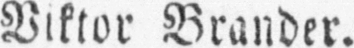Viktor Brander.
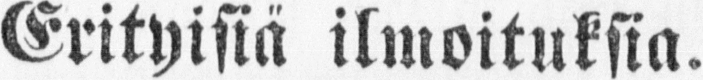Erityisiä ilmoituksia.
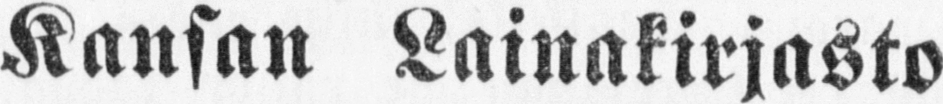Kansan Lainakirjasto
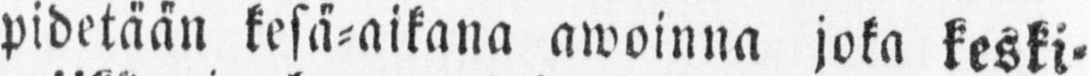pidetään kesä-aikana awoinna joka keski-
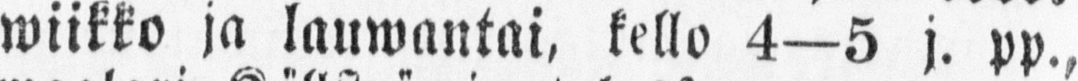wiikko ja lauwantai, kello 4—5 j. pp.,
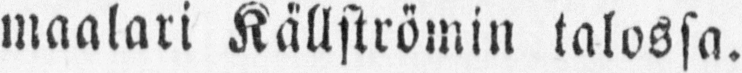maalari Källströmin talossa.
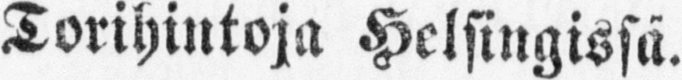Torihintoja Helsingissä.
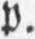p.
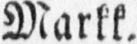Markk.
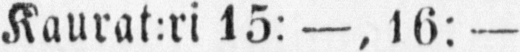Kaurat:ri 15: —, 16: —
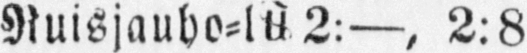Ruisjauho-lU+2114 2:—, 2:8
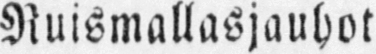Ruismallasjauhot
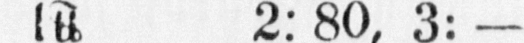lU+2114 2: 80, 3: -
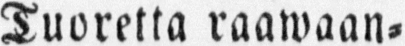Tuoretta raawaan-
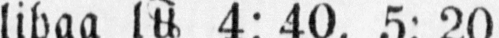lihaa lU+2114 4: 40, 5: 20
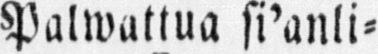Palwattua sianli-
